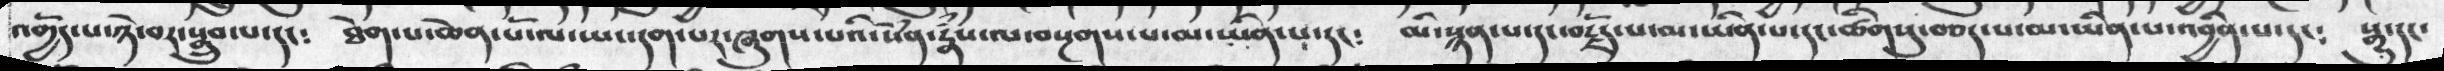འགྱོད་པ་ཉེས་བར་སྒྲུབ་པ་དང༴   ཐེག་པ་ཆེན་པོ་ལ་ཡང་དག་པར་ཞུགས་པའི་སེཾས་རྣཾས་ལ་བསྔགས་པ་མ་ཡིན་པ་དང༴  མི་སྙན་པ་དང་བརྗོད་པ་མ་ཡིན་པ་དང་ཚིགསུ་བཅད་པ་མ་ཡིན་པ་འབྱིན་པ་དང༴   སྒྱུུ་དངཾ
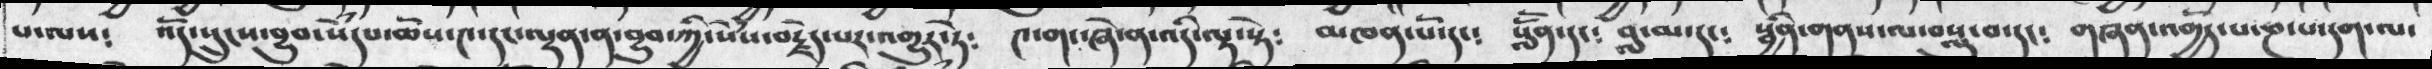པ་ལས༴  འོད་སྲུངས་བྱུབ་སེཾད་ཆོས་༤་དང་ལྡན་ན་བྱུབ་ཀྱི་སེཾས་བརྗེད་པར་འགྱུར་ཏེ༴  ༤་གང་ཞེ་ན་འདི་ལྟ་སྟེ༴  མཁན་པོ་དང༴  སློོན་དང༴  བླ་མ་དང༴  སྦྱིན་གནས་ལ་བསླུ་བ་དང༴     གཞན་འགྱོད་པ་ཎ་པ་དག་ལ་
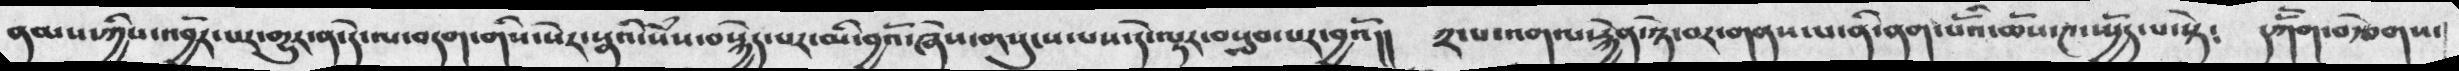ནམས་ཀྱིས་འབྱོར་པར་གྱུར་ན་དེ་ལ་བདག་གིས་སེར་སྣའི་སེཾས་བསྐྱེད་པར་མི་བྱའོ་ཞེས་གསུངས་པས་དེ་ལྟར་བསླབ་པར་བྱའོ།།  ༢་པ་འགལ་རྐྱེན་ཉེ་བར་གནས་པ་ནི་ནག་པོའི་ཆོས་༤་ཡྱོད་པ་སྟེ༴   དཀོོན་བརྩེགས་
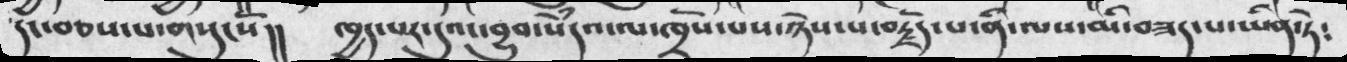དང་བཅས་པ་གསུངསོ།།      ཁྱད་པར་དུའང་བྱུབ་སེཾདའ་ལ་ཁྲོས་པས་ཉེས་པ་བརྗོད་པ་ནི་ལས་མི་་བཟད་པ་ཡིན་ཏེ༴
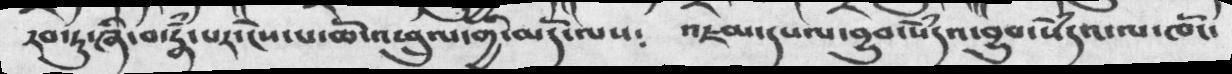རབ་ཏུ་ཞི་བ་རྣཾ་པར་ངེས་པ་ཆོས་འཕྲུལ་གྱི་མདོ་ལས༴  འཇམ་དཔལ་བྱུབ་སེཾདའ་བྱུབ་སེཾདའ་ལ་ཁོང་
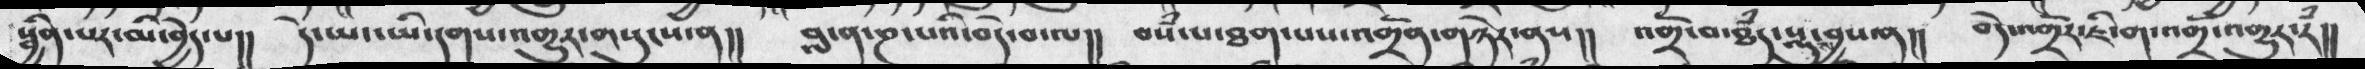སྦྱིན་པར་མི་བྱེད་པ།།  དེ་ཡང་ཡི་དགས་འགྱུར་གསུངས་ན།།  བླ་ན་ཎ་པའི་བདེ་བ་ལ།།  བསཾ་པ་ཐག་པས་འགྲོན་གཉེར་ནས།།  འགྲོ་བ་ཐཾད་སླུ་བྱས་ན།།  བདེ་འགྲོར་ཇི་ག་འགྲོ་འགྱུར་རཾ།།
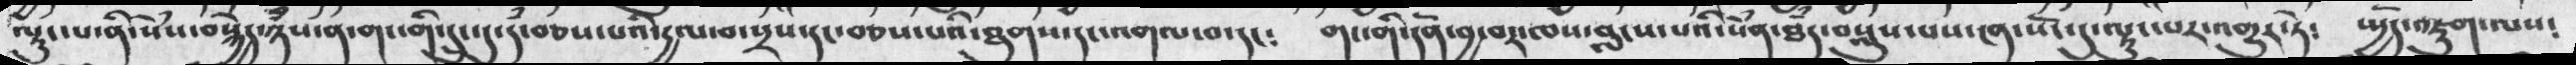ལྟུང་པ་ནི་སེཾས་བསྐྱེད་ཉཾས་ན་གང་གི་དྲུང་དུ་དཾ་བཅས་པའི་དྱལ་བ་སྲས་དང་བཅས་པའི་ཐུགས་དང་འགལ་བ་དང༴  གང་གི་དོན་བྱ་བར་ལས་བླངས་པའི་སེཾན་ཐཾད་བསླུས་པས་ངན་སོང་དུ་ལྟུང་པར་འགྱུར་ཏེ༴ སྤྱོད་འཇུག་ལས༴
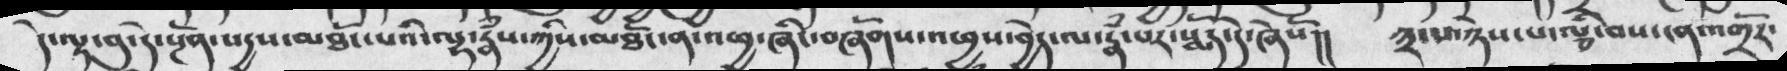དེ་ལྟ་བུ་དེ་སྔོན་སདྱས་མཐོང་པའི་ལྷ་རྣཾས་ཀྱིས་མཐོང་ན་འཕྱ་ཞིང་བཞོགས་འཕྱས་བྱེད་ལ་རྣཾ་པར་སྨོད་དོ་ཞེསོ།།  ༣་པ་ཉེས་པ་ལྕི་བས་ངན་འགྲོར་
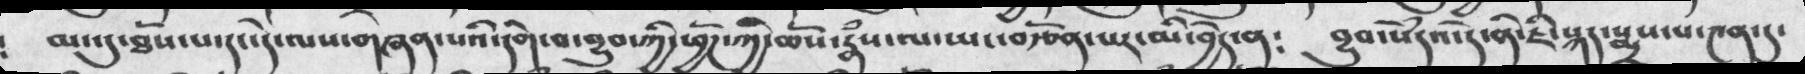མང་དུ་ཐོས་པ་དང་དེ་ལས་གཞན་པའི་དགེ་བ་བྱུབ་ཀྱི་ཕྱོཌ་ཀྱི་ཆོས་རྣཾས་ལ་ཡང་བརྩོན་པར་མི་བྱེད་ན༴  བྱུབ་སེཾདའ་དེ་ནི་ཇི་སྐད་སྨྲས་པ་༤ན་དུ་
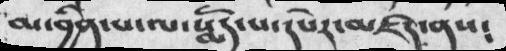མ་་བྱིན་པ་ལ་སྨོད་པ་དཔེར་མཛད་ནས༴
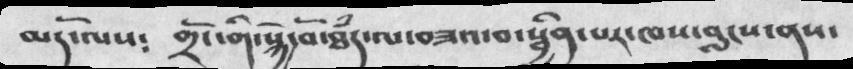མདོ་ལས༴  གྲོང་གི་སྐྱེ་བོ་ཐཾད་ལ་བཟའ་བ་སྦྱིན་པར་ཁས་བླངས་ནས་
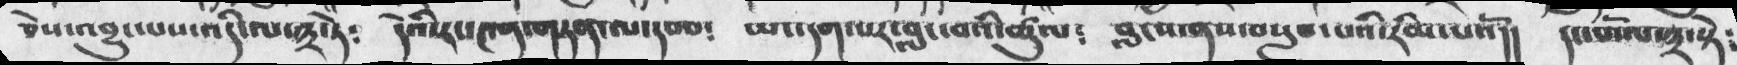ཅེས་འབྱུང་པས་འདི་ལ་༣་ཏེ༴  དེའི་རང་༤ན་གཏན་ལ་དབབ༴  ཡང་དག་པར་བླང་བའི་ཚུལ༴  བླངས་ནས་བསླབ་པའི་རིམ་པའོ།།  དང་པོ་ལ་༣་སྟེ༴
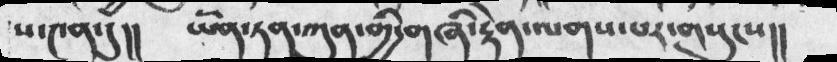ས་༤ན་དུ།། ཡོན་ཏན་ཀུན་གྱི་གཞི་རྟེན་ལགས་པར་གསུངས།།
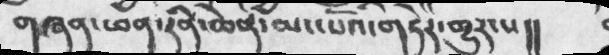གཞན་ཕན་རིན་ཆེན་མང་པོའི་གཏེར་གྱུར་པ།།
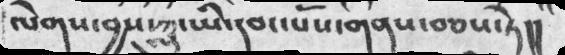ལེགས་བྱས་ཀླུ་ཡི་དབང་པོས་གནས་བཅས་ཏེ།།
